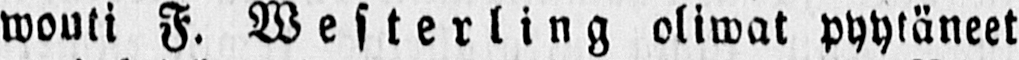wouti F. Westerling oliwat pyytäneet
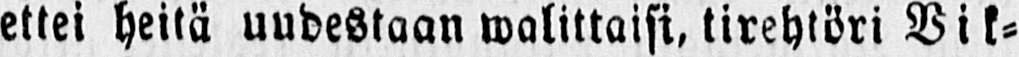ettei heitä uudestaan walittaisi, tirehtöri Vik-
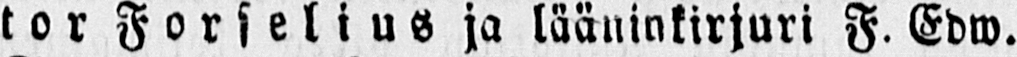tor Forselius ja lääninkirjuri F. Edw.
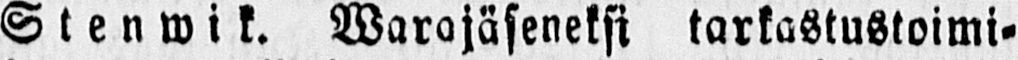Stenwik. Warojäseneksi tarkastustoimi-
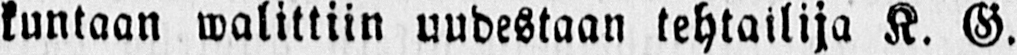kuntaan walittiin uudestaan tehtailija K. G.
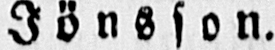Jönsson.
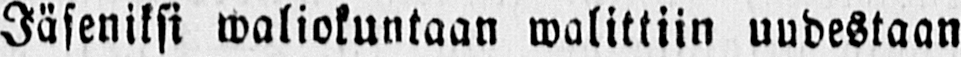Jäseniksi waliokuntaan walittiin uudestaan
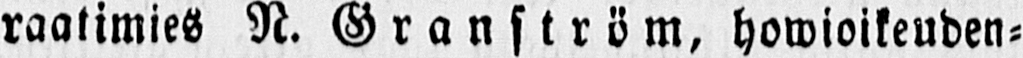raatimies N. Granström, howioikeuden-
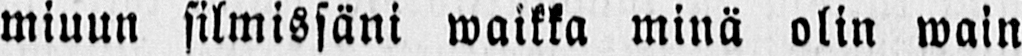miuun silmissäni waikka minä olin wain
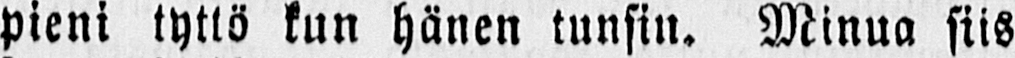pieni tyttö kun hänen tunsin. Minua siis
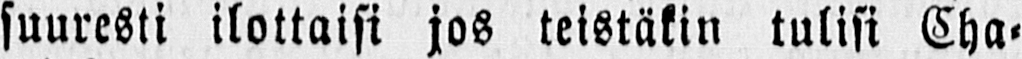suuresti ilottaisi jos teistäkin tulisi Cha-
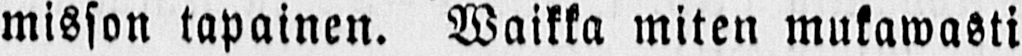misson tapainen. Waikka miten mukawasti
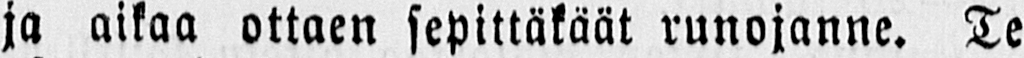ja aikaa ottaen sepittäkäät runojanne. Te
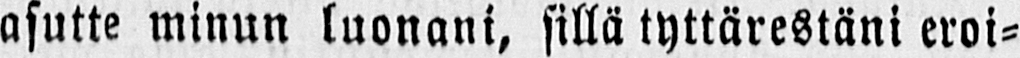asutte minun luonani, sillä tyttärestäni eroi-
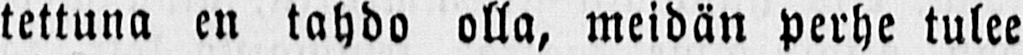tettuna en tahdo olla, meidän perhe tulee
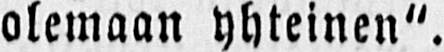olemaan yhteinen".
